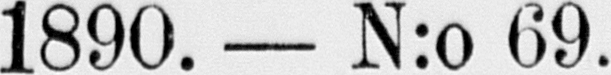1890. — N:o 69.
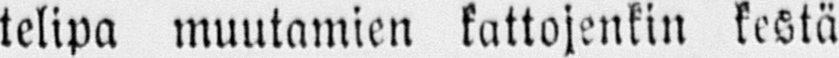telipa muutamien kattojenkin kestä-
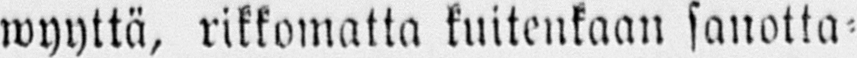wyyttä, rikkomatta kuitenkaan sanotta-
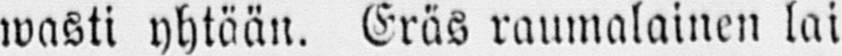wasti yhtään. Eräs raumalainen lai-
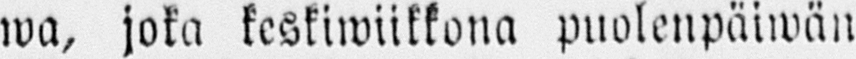wa, joka keskiwiikkona pualenpäiwän
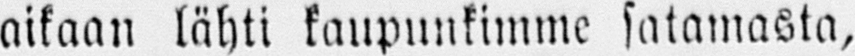aikaan lähti kaupunkimme satamasta,
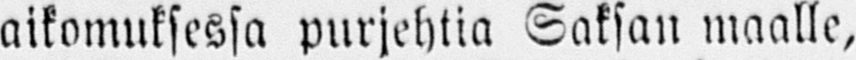aikomuksessa purjehtia Saksan maalle,
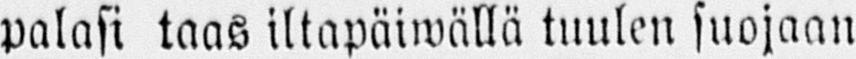palasi taas iltapäiwällä tuulen suojaan
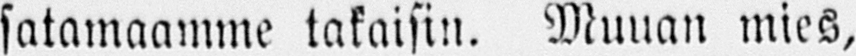satamaamme takaisin. Muuan mies,
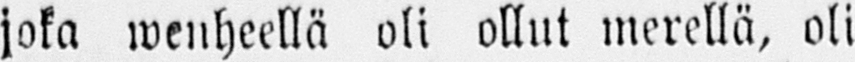joka wenheellä oli ollut merellä, oli
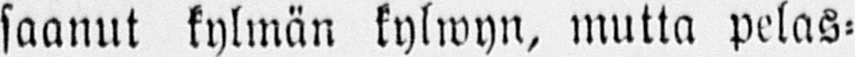saanut kylmän kylwyn, mutta pelas-
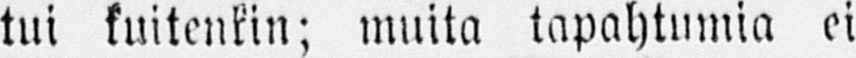tui kuitenkin; muita tapahtumia ei
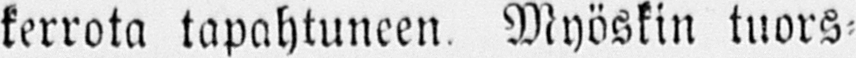kerrota tapahtuneen. Myöskin tuors-
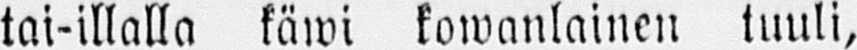tai-illalla käwi kowanlainen tuuli,
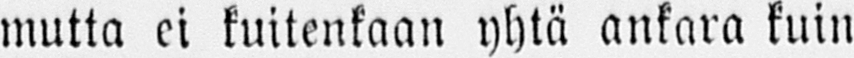mutta ei kuitenkaan yhtä ankara kuin
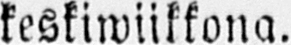keskiwiikkona.
